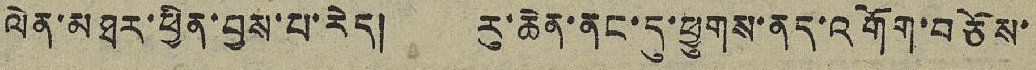ལེན་མཐར་ཕྱིན་བྱས་པ་རེད། རུ་ཆེན་ནང་དུ་ཕྱུགས་ནད་འགོག་བཅོས་
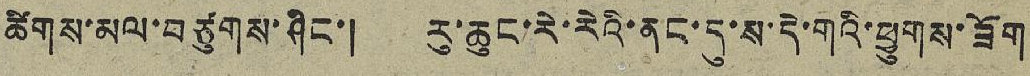ཚིགས་མལ་བཙུགས་ཤིང་། རུ་ཆུང་རེ་རེའི་ནང་དུ་ས་དེ་གའི་ཕྱུགས་ཟོག
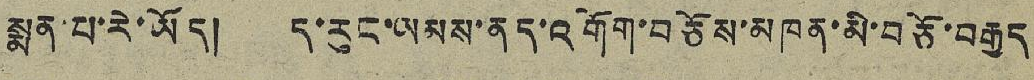སྨན་པ་རེ་ཡོད། ད་རུང་ཡམས་ནད་འགོག་བཅོས་མཁན་མི་བཅོ་བརྒྱད
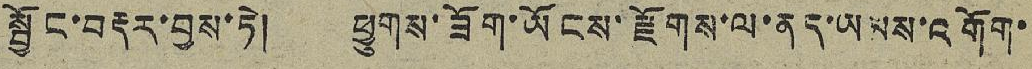སྦྱོང་བརྡར་བྱས་ཏེ། ཕྱུགས་ཟོག་ཡོངས་རྫོགས་ལ་ནད་ཡམས་འགོག་
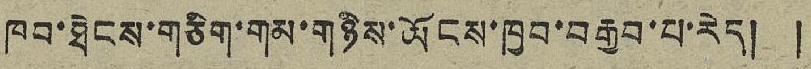ཁབ་ཐེངས་གཅིག་གམ་གཉིས་ཡོངས་ཁྱབ་བརྒྱབ་པ་རེད། །
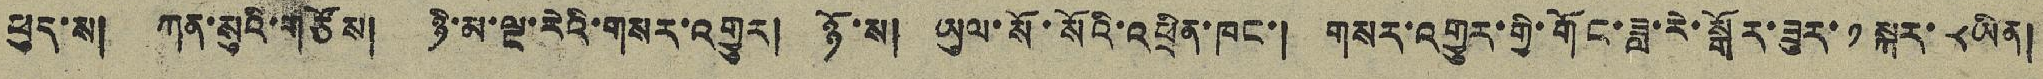ཕུད་ས། ཀན་སུའི་གཙོས། ཉི་མ་ལྔ་རེའི་གསར་འགྱུར། ཉོ་ས། ཡུལ་སོ་སོའི་འཕྲིན་ཁང་། གསར་འགྱུར་གྱི་གོང་ཟླ་རེ་སྒོར་ཟུར་ ༡ སྐར་ ༨ ཡིན།
